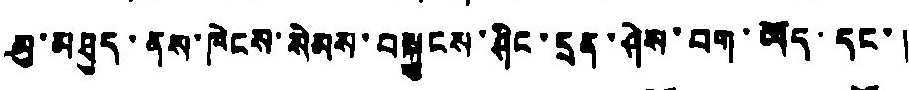མུ་མཐུད་ནས་ཁེངས་སེམས་བསྐྱུངས་ཤིང་དྲན་ཤེས་བག་ཡོད་དང་།
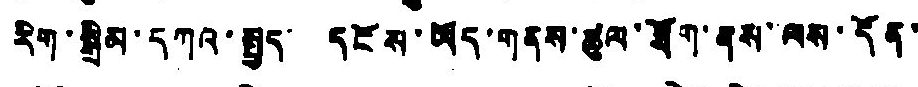རིག་སྒྲིམ་དཀའ་སྤྱད་ དངོས་ཡོད་གནས་ཚུལ་ཐོག་ནས་ལས་དོན་་
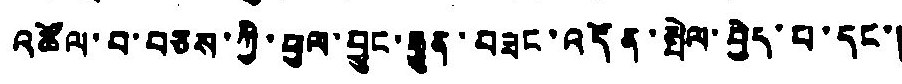འཚོལ་བ་བཅས་ཀྱི་ཕུལ་བྱུང་རྒྱུན་བཟུང་འདོན་སྤེལ་བྱེད་པ་དང་།
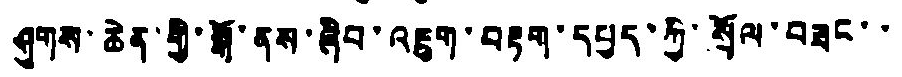ཤུགས་ཆེན་གྱི་སྒོ་ནས་ཞིབ་འཇུག་བརྟག་དཔྱད་ཀྱི་སྲོལ་བཟང་་་
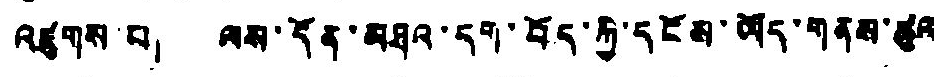འཛུགས་པ། ལས་དོན་མཐའ་དག་བོད་ཀྱི་དངོས་ཡོད་གནས་ཚུལ
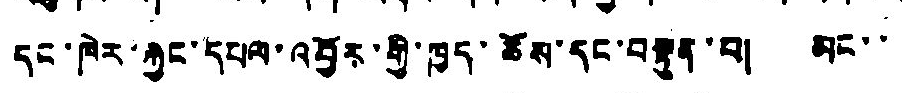དང་ཁེར་རྐྱང་དཔལ་འབྱོར་གྱི་ཁྱད་ཚོས་དང་བསྟུན་པ། མང་་་
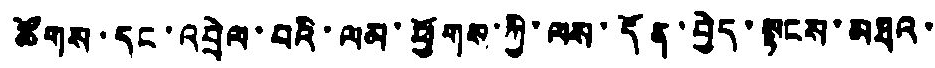ཚོགས་དང་འབྲེལ་བའི་ལམ་ཕྱོགས་ཀྱི་ལས་དོན་བྱེད་སྟངས་མཐའ་
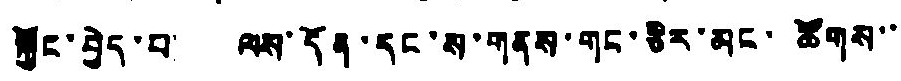སྐྱོང་བྱེད་པ། ལས་དོན་དང་ས་གནས་གང་ཅིར་མང་ཚོགས་་
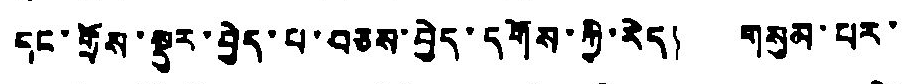དང་གྲོས་སྡུར་བྱེད་པ་བཅས་བྱེད་དགོས་ཀྱི་རེད། གསུམ་པར་
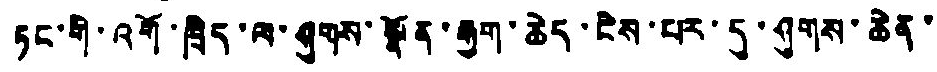ཏང་གི་འགོ་ཁྲིད་ལ་ཤུགས་སྣོན་རྒྱག་ཆེད་ངེས་པར་དུ་ཤུགས་ཆེན་
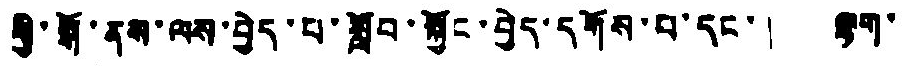གྱི་སྒོ་ནས་ལས་བྱེད་པ་སློབ་སྐྱོང་བྱེད་དགོས་པ་དང་། ལྷག་
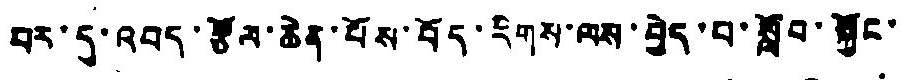བར་དུ་འབད་རྩོལ་ཆེན་པོས་བོད་རིགས་ལས་བྱེད་པ་སློབ་སྐྱོང་
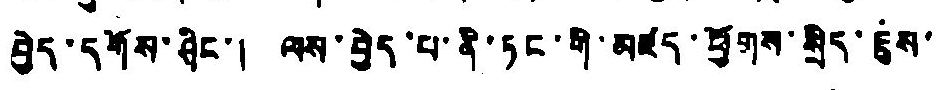བྱེད་དགོས་ཤིང་། ལས་བྱེད་པ་ནི་ཏང་གི་མཛད་ཕྱོགས་སྲིད་ཇུས་
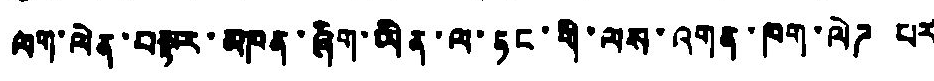ལག་ལེན་བསྟར་མཁན་ཞིག་ཡིན་ལ་ཏང་གི་ལས་འགན་ཁག་ལེཌ པར
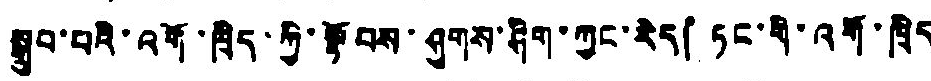སྒྲུབ་པའི་འགོ་ཁྲིད་ཀྱི་སྟོབས་ཤུགས་ཤིག་ཀྱང་རེད། ཏང་གི་འགོ་ཁྲིད
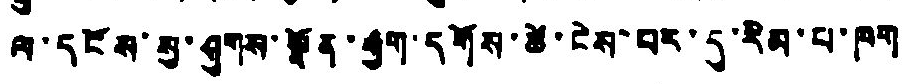ལ་དངོས་སུ་ཤུགས་སྣོན་རྒྱག་དགོས་ཚེ་ངེས་པར་དུ་རིམ་པ་ཁག་
